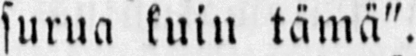surua kuin tämä".
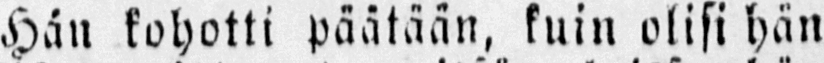Hän kohotti päätään, kuin olisi hän
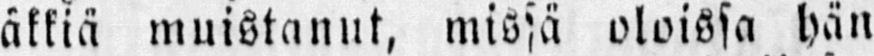äkkiä muistanut, missä oloissa hän
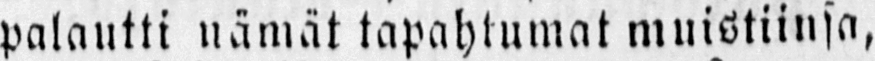palautti nämät tapahtumat muistiinsa,
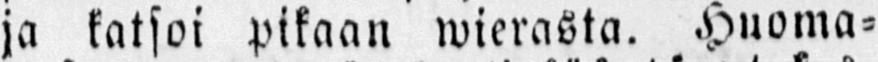ja katsoi pikaan wierasta. Huoma-
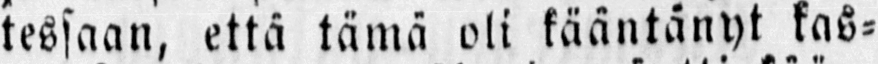tessaan, että tämä oli kääntänyt kas-
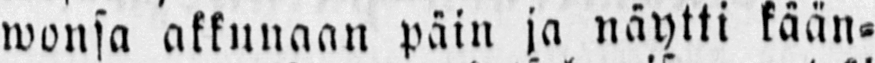wonsa akkunaan päin ja näytti kään-
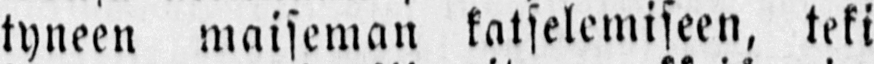tyneen maiseman katselemiseen, teki
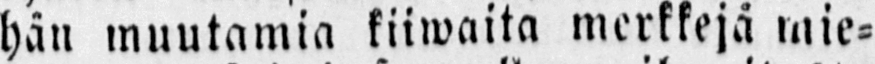hän muutamia kiiwaita merkkejä mie-
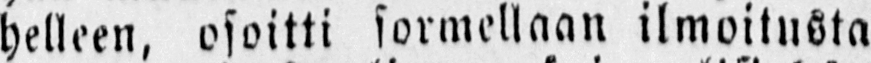helleen, osoitti sormellaan ilmoitusta
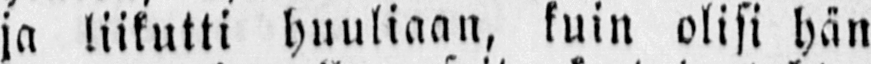ja liikutti huuliaan, kuin olisi hän
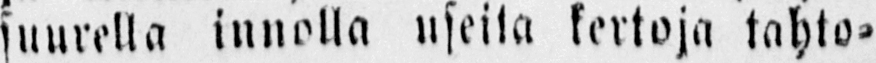suurella innolla useita kertoja tahto-
